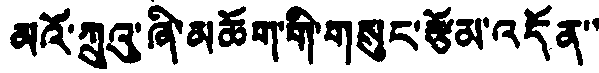མའོ་ཀྲུའུ་ཞི་མཆོག་གི་གསུང་རྩོམ་འདོན་་
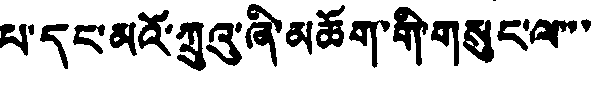པ་དང་མའོ་ཀྲུའུ་ཞི་མཆོག་གི་གསུང་ལ་་་
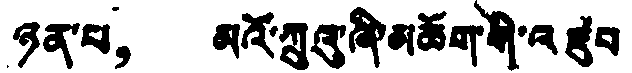ཉན་པ， མའོ་ཀྲུའུ་ཞི་མཆོག་གི་འཛུབ
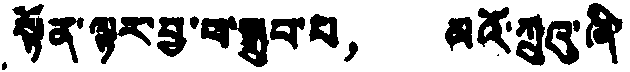སྟོན་ལྟར་བྱ་བ་སྒྲུབ་པ， མའོ་ཀྲུའུ་ཞི་
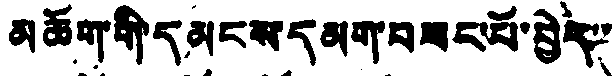མཆོག་གི་དམངས་དམག་བཟང་པོ་བྱེད་་
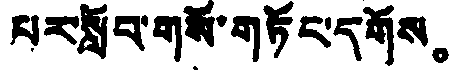པར་སློབ་གསོ་གཏོང་དགོས。
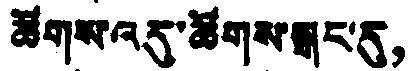ཚོགས་འདུ་ཚོགས་སྒང་དུ，
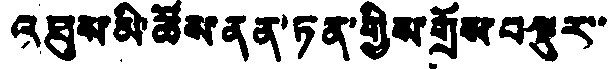འཐུས་མི་ཚོས་ནན་ཏན་གྱིས་གྲོས་བསྡུར་་
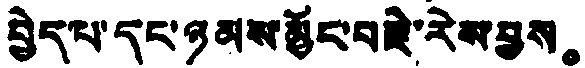བྱེད་པ་དང་ཉམས་མྱོང་བརྗེ་རེས་བྱས。
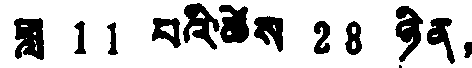ཟླ 11 པའི་ཚེས 28 ཉིན，
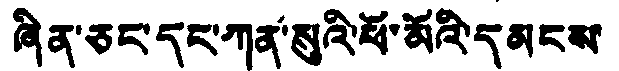ཞིན་ཅང་དང་ཀན་སུའི་ཕོ་མོའི་དམངས་
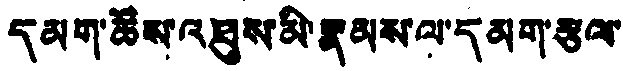དམག་ཚོས་འཐུས་མི་རྣམས་ལ་དམག་རྩལ་
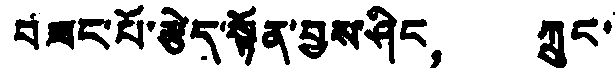བཟང་པོ་རྩེད་སྟོན་བྱས་ཤིང， ཀྲུང་
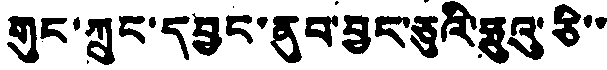གུང་ཀྲུང་དབྱང་ནུབ་བྱང་ཅུའི་ཧྲུའུ་ཅི་་
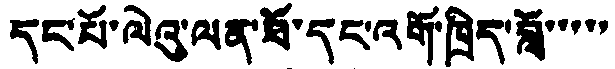དང་པོ་ལེའུ་ལན་ཐོ་དང་འགོ་ཁྲིད་བློ་་་་་
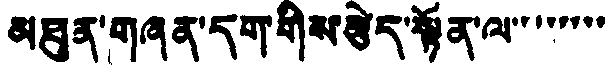མཐུན་གཞན་དག་གིས་རྩེད་སྟོན་ལ་་་་་་་་
